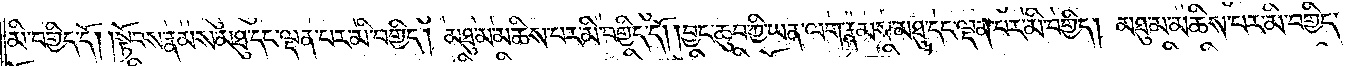མི་བགྱིད་དོ། །སྟོབས་རྣམས་མཐུ་དང་ལྡན་པར་མི་བགྱིད། མཐུ་མ་མཆིས་པར་མི་བགྱིད་དོ། །བྱང་ཆུབ་ཀྱི་ཡན་ལག་རྣམས་མཐུ་དང་ལྡན་པར་མི་བགྱིད། མཐུ་མ་མཆིས་པར་མི་བགྱིད་
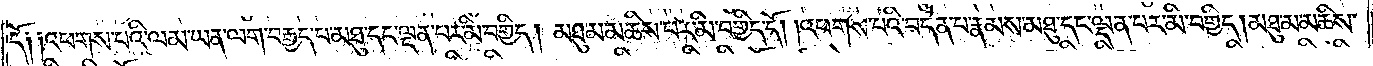དོ༑ ༑འཕགས་པའི་ལམ་ཡན་ལག་བརྒྱད་པ་མཐུ་དང་ལྡན་པར་མི་བགྱིད། མཐུ་མ་མཆིས་པར་མི་བགྱིད་དོ། །འཕགས་པའི་བདེན་པ་རྣམས་མཐུ་དང་ལྡན་པར་མི་བགྱིད། མཐུ་མ་མཆིས་
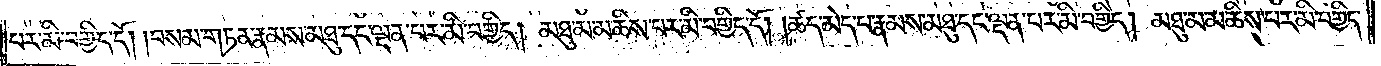པར་མི་བགྱིད་དོ། །བསམ་གཏན་རྣམས་མཐུ་དང་ལྡན་པར་མི་བགྱིད། མཐུ་མ་མཆིས་པར་མི་བགྱིད་དོ། །ཚད་མེད་པ་རྣམས་མཐུ་དང་ལྡན་པར་མི་བགྱིད། མཐུ་མ་མཆིས་པར་མི་བགྱིད་
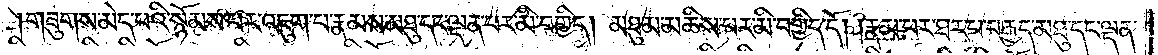གཟུགས་མེད་པའི་སྙོམས་པར་འཇུག་པ་རྣམས་མཐུ་དང་ལྡན་པར་མི་བགྱིད། མཐུ་མ་མཆིས་པར་མི་བགྱིད་དོ། །རྣམ་པར་ཐར་པ་བརྒྱད་མཐུ་དང་ལྡན་
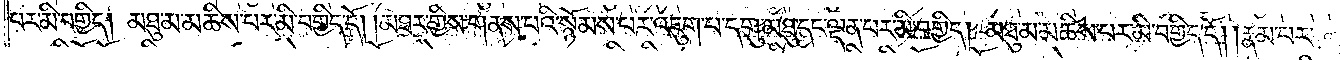པར་མི་བགྱིད། མཐུ་མ་མཆིས་པར་མི་བགྱིད་དོ། །མཐར་གྱིས་གནས་པའི་སྙོམས་པར་འཇུག་པ་དགུ་མཐུ་དང་ལྡན་པར་མི་བགྱིད། མཐུ་མ་མཆིས་པར་མི་བགྱིད་དོ། །རྣམ་པར་
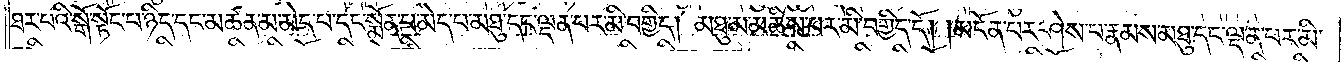ཐར་པའི་སྒོ་སྟོང་པ་ཉིད་དང་མཚན་མ་མེད་པ་དང་སྨོན་པ་མེད་པ་མཐུ་དང་ལྡན་པར་མི་བགྱིད། མཐུ་མ་མཆིས་པར་མི་བགྱིད་དོ། །མངོན་པར་ཤེས་པ་རྣམས་མཐུ་དང་ལྡན་པར་མི་
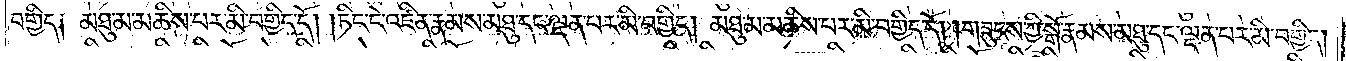བགྱིད༑ མཐུ་མ་མཆིས་པར་མི་བགྱིད་དོ། །ཏིང་ངེ་འཛིན་རྣམས་མཐུ་དང་ལྡན་པར་མི་བགྱིད། མཐུ་མ་མཆིས་པར་མི་བགྱིད་དོ། །གཟུངས་ཀྱི་སྒོ་རྣམས་མཐུ་དང་ལྡན་པར་མི་བགྱིད།
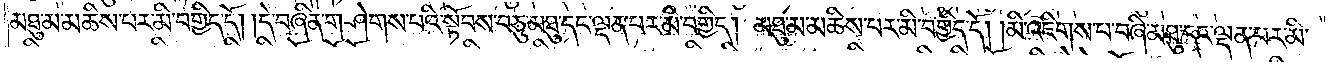མཐུ་མ་མཆིས་པར་མི་བགྱིད་དོ། །དེ་བཞིན་གཤེགས་པའི་སྟོབས་བཅུ་མཐུ་དང་ལྡན་པར་མི་བགྱིད། མཐུ་མ་མཆིས་པར་མི་བགྱིད་དོ། །མི་འཇིགས་པ་བཞི་མཐུ་དང་ལྡན་པར་མི་
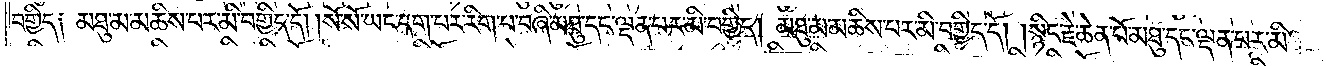བགྱིད༑ མཐུ་མ་མཆིས་པར་མི་བགྱིད་དོ། །སོ་སོ་ཡང་དག་པར་རིག་པ་བཞི་མཐུ་དང་ལྡན་པར་མི་བགྱིད། མཐུ་མ་མཆིས་པར་མི་བགྱིད་དོ། །སྙིང་རྗེ་ཆེན་པོ་མཐུ་དང་ལྡན་པར་མི་
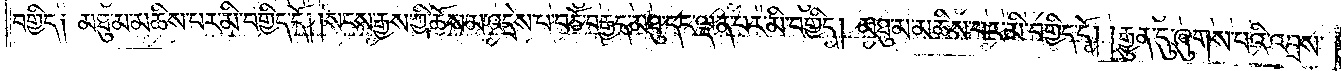བགྱིད༑ མཐུ་མ་མཆིས་པར་མི་བགྱིད་དོ། །སངས་རྒྱས་ཀྱི་ཆོས་མ་འདྲེས་པ་བཅོ་བརྒྱད་མཐུ་དང་ལྡན་པར་མི་བགྱིད། མཐུ་མ་མཆིས་པར་མི་བགྱིད་དོ། །རྒྱུན་དུ་ཞུགས་པའི་འབྲས་
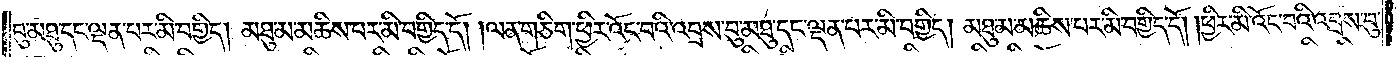བུ་མཐུ་དང་ལྡན་པར་མི་བགྱིད། མཐུ་མ་མཆིས་པར་མི་བགྱིད་དོ། །ལན་གཅིག་ཕྱིར་འོང་བའི་འབྲས་བུ་མཐུ་དང་ལྡན་པར་མི་བགྱིད། མཐུ་མ་མཆིས་པར་མི་བགྱིད་དོ། །ཕྱིར་མི་འོང་བའི་འབྲས་བུ་
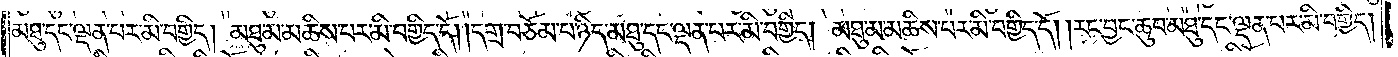མཐུ་དང་ལྡན་པར་མི་བགྱིད། མཐུ་མ་མཆིས་པར་མི་བགྱིད་དོ། །དགྲ་བཅོམ་པ་ཉིད་མཐུ་དང་ལྡན་པར་མི་བགྱིད། མཐུ་མ་མཆིས་པར་མི་བགྱིད་དོ། །རང་བྱང་ཆུབ་མཐུ་དང་ལྡན་པར་མི་བགྱིད།
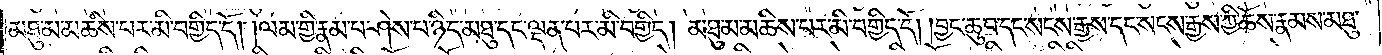མཐུ་མ་མཆིས་པར་མི་བགྱིད་དོ། །ལམ་གྱི་རྣམ་པ་ཤེས་པ་ཉིད་མཐུ་དང་ལྡན་པར་མི་བགྱིད། མཐུ་མ་མཆིས་པར་མི་བགྱིད་དོ། །བྱང་ཆུབ་དང་སངས་རྒྱས་དང་སངས་རྒྱས་ཀྱི་ཆོས་རྣམས་མཐུ་
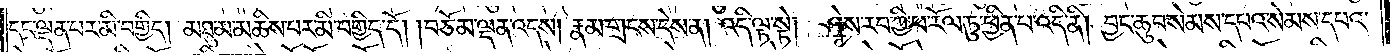དང་ལྡན་པར་མི་བགྱིད། མཐུ་མ་མཆིས་པར་མི་བགྱིད་དོ། །བཅོམ་ལྡན་འདས། རྣམ་གྲངས་དེས་ན། འདི་ལྟ་སྟ། ཤེས་རབ་ཀྱི་ཕ་རོལ་ཏུ་ཕྱིན་པ་འདི་ནི། བྱང་ཆུབ་སེམས་དཔའ་སེམས་དཔའ་
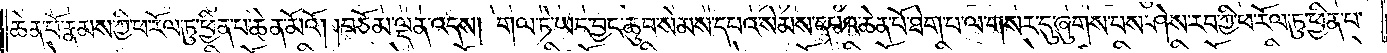ཆེན་པོ་རྣམས་ཀྱི་ཕ་རོལ་ཏུ་ཕྱིན་པ་ཆེན་མོའོ། །བཅོམ་ལྡན་འདས། གལ་ཏེ་ཡང་བྱང་ཆུབ་སེམས་དཔའ་སེམས་དཔའ་ཆེན་པོ་ཐེག་པ་ལ་གསར་དུ་ཞུགས་པས་ཤེས་རབ་ཀྱི་ཕ་རོལ་ཏུ་ཕྱིན་པ་
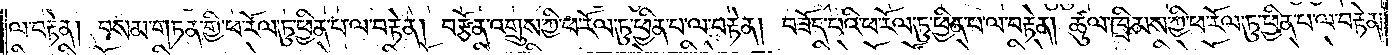ལ་བརྟེན། བསམ་གཏན་གྱི་ཕ་རོལ་ཏུ་ཕྱིན་པ་ལ་བརྟེན། བརྩོན་འགྲུས་ཀྱི་ཕ་རོལ་ཏུ་ཕྱིན་པ་ལ་བརྟེན། བཟོད་པའི་ཕ་རོལ་ཏུ་ཕྱིན་པ་ལ་བརྟེན། ཚུལ་ཁྲིམས་ཀྱི་ཕ་རོལ་ཏུ་ཕྱིན་པ་ལ་བརྟེན།
